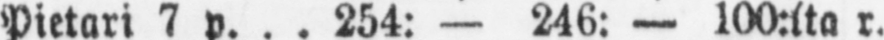Pietari 7 p. 254: — 246: — 100:lta r.
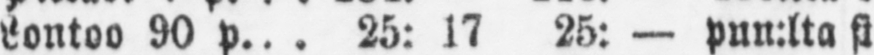Lontoo 90 p. 25: 17 25: — pun:lta si.
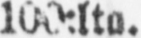100:lto.
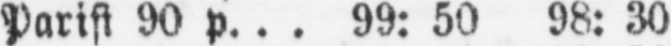Parisi 90 p. 99: 50 98: 30
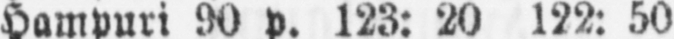Hampuri 90 p. 123: 20 122: 50
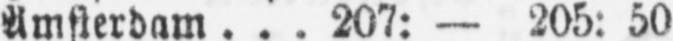Amsterdam. 207: — 205: 50
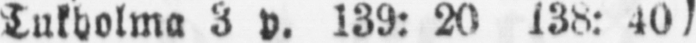Tukholma 3 v. 133: 20 138: 40
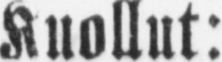Kuollut:
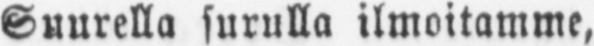Suurella surulla ilmoitamme,
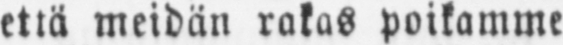että meidän rakas poikamme
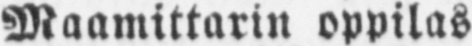Maamittarin oppilas
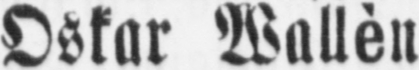Oskar Wallèn
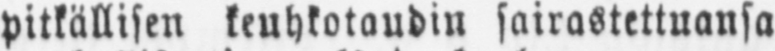pitkällisen keuhkotaudin sairastettuansa
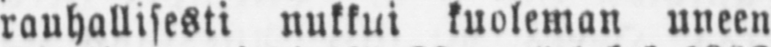rauhallisesti nukkui kuoleman uneen
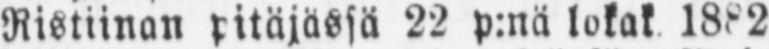Ristiinan pitäjässä 22 p:nä lokak 1882
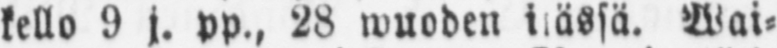kello 9 j. pp., 28 wuoden ijässä. Wai-
